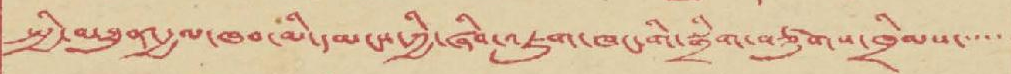སྤྱི་མཐུན་རྒྱལ་ཁབ་མི་དམངས་ཀྱི་ཞིབ་འཇུག་ཁང་གི་སྒྲིག་བཙུགས་ཁྲིམས་་་་་
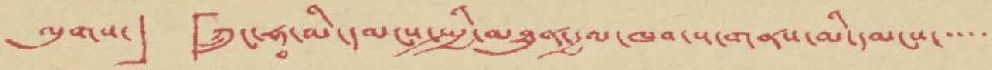ལུགས་」 「ཀྲུང་ཧྭ་མི་དམངས་སྤྱི་མཐུན་རྒྱལ་ཁབ་ས་གནས་མི་དམངས་་་་་
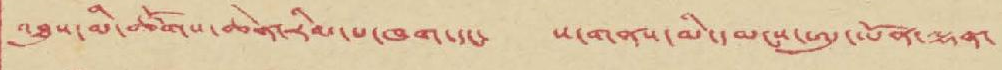འཐུས་མི་ཚོགས་ཆེན་རིམ་པ་ཁག་དང་ ས་གནས་མི་དམངས་ཨུ་ཡོན་ལྷན་
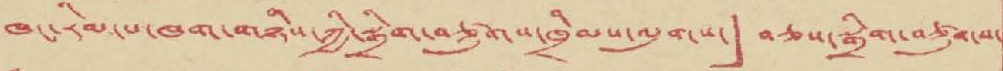ཁང་རིམ་པ་ཁག་གཉིས་ཀྱི་སྒྲིག་བཙུགས་ཁྲིམས་ལུགས་」བཅས་སྒྲིག་བཙུགས་
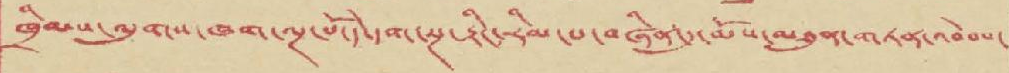ཁྲིམས་ལུགས་ཁག་ལྔ་པོ་དེ་དག་སྔ་རྟིང་རིམ་པ་བཞིན་དུ་མོས་མཐུན་གཏན་འབེབས་
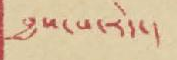བྱས་པ་རེད་།
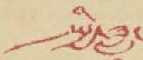སྤྱི་ཟླ་
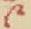༩
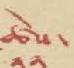ཚེས་
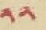༢༢
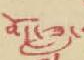བོད་ཟླ་
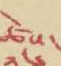ཚེས་
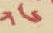༢༦
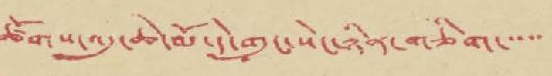ཚོགས་འདུ་ཆེ་མོ་དེ་གུང་སེང་ཉིན་གཅིག་་་་་
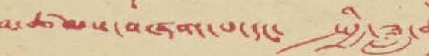མཚམས་བཞག་པ་དང་ སྤྱི་ཟླ་
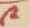༩
